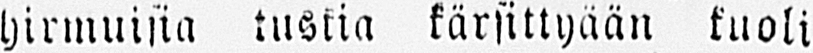hirmuisia tuskia kärsittyään kuoli
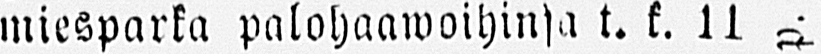miesparka palohaawoihinsa t. k. 11 p.
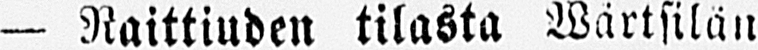— Raittiuden tilasta Wärtsilän
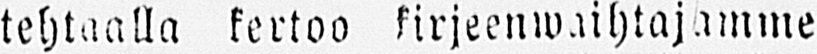tehtaalla kertoo kirjeenwaihtajamme
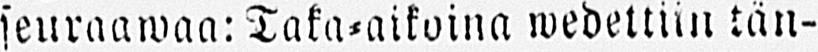seuraawaa: Taka-aikoina wedettiin tän-
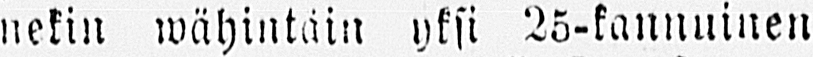nekin wähintäin yksi 25-kannuinen
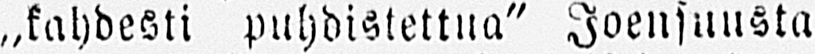„kahdesti puhdistettua" Joensuusta
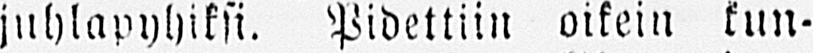juhlapyhiksi. Pidettiin oikein kun-
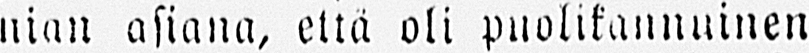nian asiana, että oli puolikannuinen
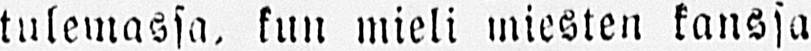tulemassa, kun mieli miesten kanssa
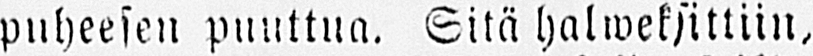puheesen puuttua. Sitä halweksittiin,
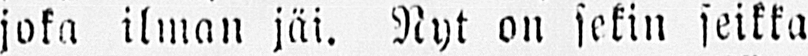joka ilman jäi. Nyt on sekin seikka
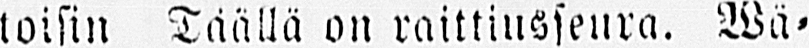toisin Täällä on raittiusseura. Wä-
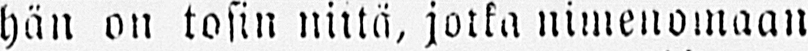hän on tosin niitä, jotka nimenomaan
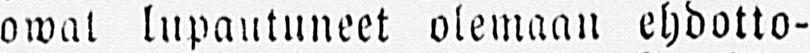owat lupautuneet olemaan ehdotto-
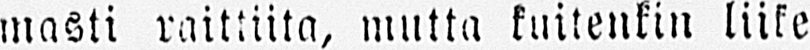masti raittiita, mutta kuitenkin liike
